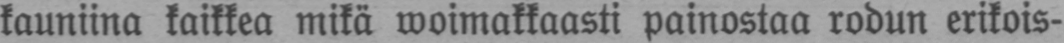kauniina kaikkea mikä woimakkaasti painostaa rodun erikois-
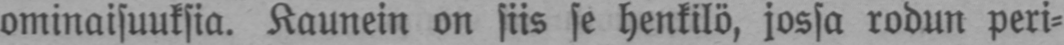ominaisuuksia. Kaunein on siis se henkilö, jossa rodun peri-
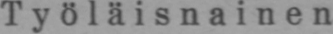Työläisnainen
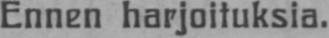Ennen harjoituksia.
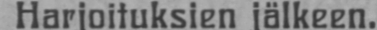Harjoituksien jälkeen.
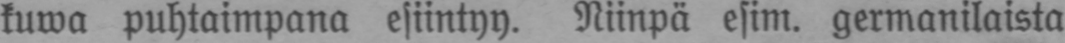kuwa puhtaimpana esiintyy. Niinpä esim. germanilaista
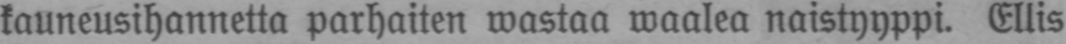kauneusihannetta parhaiten wastaa waalea naistyyppi. Ellis
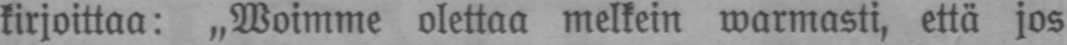kirjoittaa: „Woimme olettaa melkein warmasti, että jos
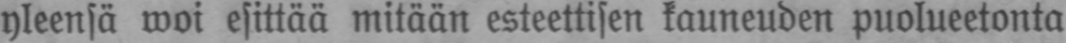yleensä woi esittää mitään esteettisen kauneuden puolueetonta
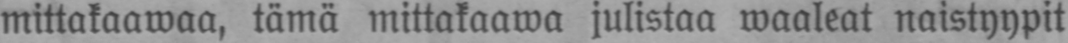mittakaawaa, tämä mittakaawa julistaa waaleat naistyypit
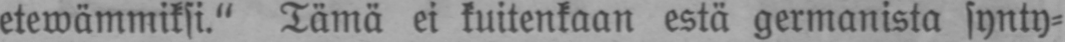etewämmiksi." Tämä ei kuitenkaan estä germanista synty-
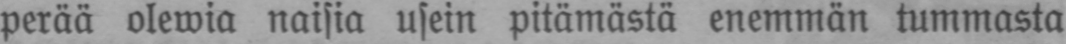perää olewia naisia usein pitämästä enemmän tummasta
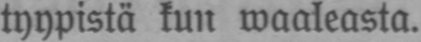tyypistä kun waaleasta.
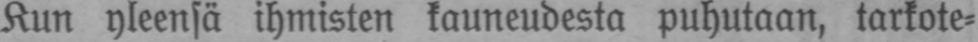Kun yleensä ihmisten kauneudesta puhutaan, tarkote-
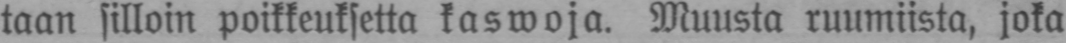taan silloin poikkeuksetta kaswoja. Muusta ruumiista, joka
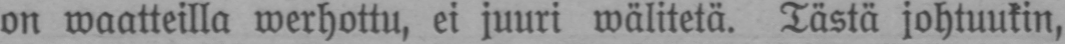on waatteilla werhottu, ei juuri wälitetä. Tästä johtuukin,
